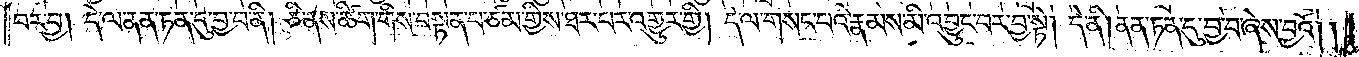བར་བྱ། དེ་ལ་ནན་ཏན་དུ་བྱ་བ་ནི། ཅི་ནས་ཚིག་གིས་བསྟན་པ་ཙམ་གྱིས་ཐར་པར་འགྱུར་གྱི། དེ་ལ་གསང་བའི་རྣམས་མི་འབྱུང་བར་བྱ་སྟེ། དེ་ནི། ནན་ཏན་དུ་བྱ་བ་ཞེས་བྱའོ། །
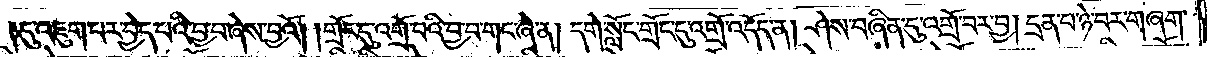དུ་འཇུག་པར་བྱེད་པའི་བྱ་བ་ཞེས་བྱའོ། །གྲོང་དུ་འགྲོ་བའི་བྱ་བ་གང་ཞེ་ན། དགེ་སློང་གྲོང་དུ་འགྲོ་འདོད་ན། ཤེས་བཞིན་དུ་འགྲོ་བར་བྱ། དྲན་པ་ཉེ་བར་གཞག་
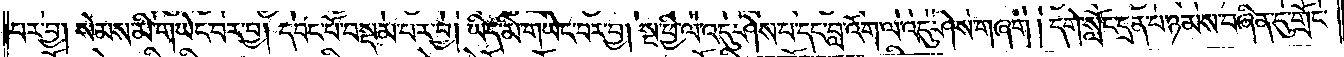པར་བྱ། སེམས་མི་གཡེང་བར་བྱ། དབང་པོ་བསྡམ་པར་བྱ། ཡིད་མི་གཡེང་བར་བྱ། སྔ་ཕྱི་ལ་འདུ་ཤེས་པ་དང་བླ་འོག་ལ་འདུ་ཤེས་གཞག །དགེ་སློང་དྲན་པ་ཉམས་བཞིན་དུ་གྲོང་
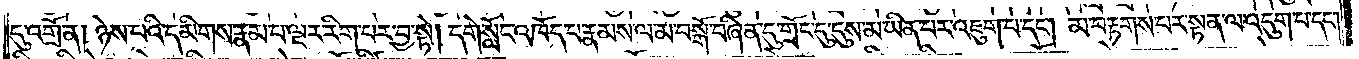དུ་འགྲོ་ན། ཉེས་པའི་དམིགས་རྣམ་པ་ལྔར་རིག་པར་བྱ་སྟེ། དགེ་སློང་འཁོད་པ་རྣམས་ལ་མ་བསྒོ་བཞིན་དུ་གྲོང་དུ་དུས་མ་ཡིན་པར་འཇུག་པ་དང༌། མ་བརྟགས་པར་སྟན་ལ་འདུག་པ་དང༌།
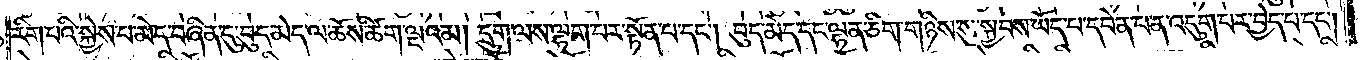རིག་པའི་སྐྱེས་པ་མེད་བཞིན་དུ་བུད་མེད་ལ་ཆོས་ཚིག་ལྔའམ། དྲུག་ལས་ལྷག་པར་སྟོན་པ་དང༌། བུད་མེད་དང་ལྷན་ཅིག་གཉིས་སུ་སྐྱབས་ཡོད་པ་དབེན་པ་ན་འདུག་པར་བྱེད་པ་དང༌།
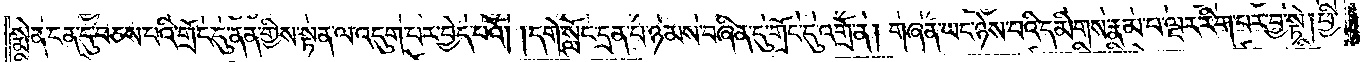སྨེན་ངན་དུ་བཅས་པའི་གྲོང་དུ་ནན་གྱིས་སྟན་ལ་འདུག་པར་བྱེད་པའོ། །དགེ་སློང་དྲན་པ་ཉམས་བཞིན་དུ་གྲོང་དུ་འགྲོ་ན། གཞན་ཡང་ཉེས་པའི་དམིགས་རྣམ་པ་ལྔར་རིག་པར་བྱ་སྟེ། ཕྱི་
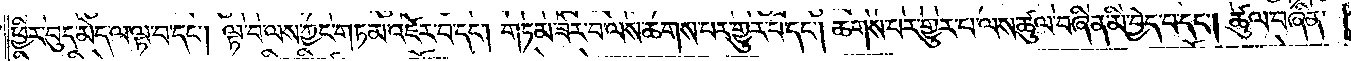ཕྱིར་བུད་མེད་ལ་ལྟ་བ་དང༌། ལྟ་བ་ལས་ཀྱང་གཏམ་འཛེར་བ་དང༌། གཏམ་ཟེར་བ་ལས་ཆགས་པར་གྱུར་པ་དང༌། ཆགས་པར་གྱུར་པ་ལས་ཚུལ་བཞིན་མི་བྱེད་པ་དང༌། ཚུལ་བཞིན་
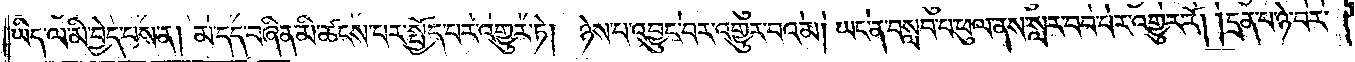ཡིད་ལ་མི་བྱེད་པས་ན། མ་དད་བཞིན་མི་ཚངས་པར་སྤྱོད་པར་འགྱུར་ཏེ། ཉེས་པ་འབྱུང་བར་འགྱུར་བའམ། ཡང་ན་བསླབ་པ་ཕུལ་ནས་སླར་བབ་པར་འགྱུར་རོ། །དྲན་པ་ཉེ་བར་
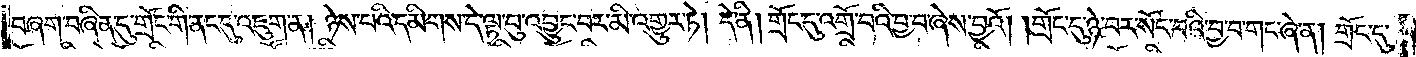བཞག་བཞིན་དུ་གྲོང་གི་ནང་དུ་འཇུག་ན། ཉེས་པའི་དམིགས་དེ་ལྟ་བུ་འབྱུང་བར་མི་འགྱུར་ཏེ། དེ་ནི། གྲོང་དུ་འགྲོ་བའི་བྱ་བ་ཞེས་བྱའོ། །གྲོང་དུ་ཉེ་བར་སོང་བའི་བྱ་བ་གང་ཞེ་ན། གྲོང་དུ་
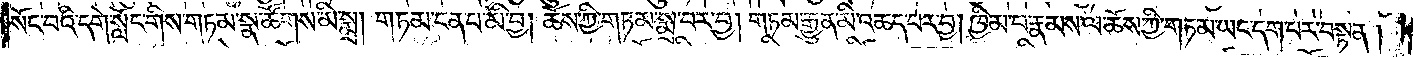སོང་བའི་དགེ་སློང་གིས་གཏམ་སྣ་ཚོགས་མི་སྨྲ། གཏམ་ངན་པ་མི་བྱ། ཆོས་ཀྱི་གཏམ་སྨྲ་བར་བྱ། གཏམ་རྒྱུན་མི་འཆད་པར་བྱ། ཁྱིམ་པ་རྣམས་ལ་ཆོས་ཀྱི་གཏམ་ཡང་དག་པར་བསྟན་
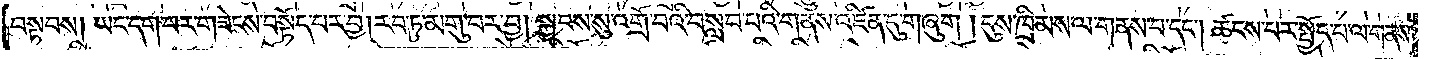བསྟབས། ཡང་དག་པར་གཟེངས་བསྟོད་པར་བྱ། རབ་ཏུ་མགུ་བར་བྱ། སྐྱབས་སུ་འགྲོ་བའི་བསླབ་པའི་གནས་འཛིན་དུ་གཞུག །དུས་ཁྲིམས་ལ་གནས་པ་དང༌། ཚངས་པར་སྤྱོད་པ་ལ་གནས་
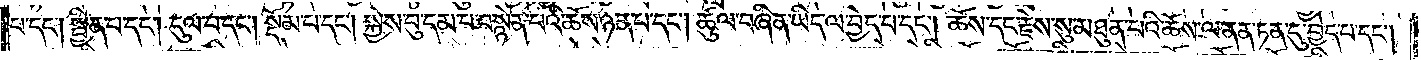པ་དང༌། སྦྱིན་པ་དང༌། དུལ་བ་དང༌། སྡོམ་པ་དང༌། སྐྱེས་བུ་དམ་པ་བསྙེན་པའི་ཆོས་ཉན་པ་དང༌། ཚུལ་བཞིན་ཡིད་ལ་བྱེད་པ་དང༌། ཆོས་དང་རྗེས་སུ་མཐུན་པའི་ཆོས་ལ་ནན་ཏན་དུ་བྱེད་པ་དང༌།
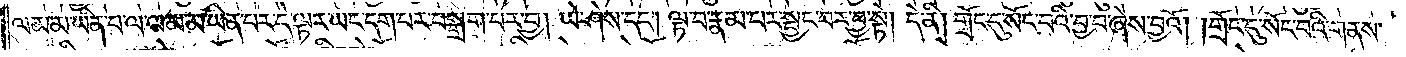ལམ་མ་ཡིན་པ་ལ་ལམ་མ་ཡིན་པར་དེ་ལྟར་ཡང་དག་པར་བསྒྲག་པར་བྱ། ཡེ་ཤེས་དང༌། ལྟ་བ་རྣམ་པར་སྦྱང་བར་བྱ་སྟེ། དེ་ནི། གྲོང་དུ་སོང་བའི་བྱ་བ་ཞེས་བྱའོ། །གྲོང་དུ་སོང་བའི་གནས་
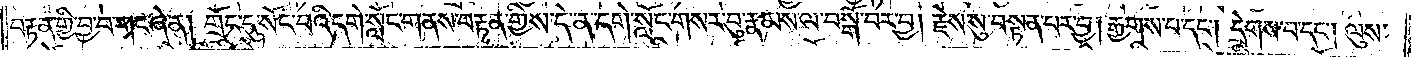བརྟན་གྱི་བྱ་བ་གང་ཞེ་ན། གྲོང་དུ་སོང་བའི་དགེ་སློང་གནས་བརྟན་གྱིས་དེ་ན་དགེ་སློང་གསར་བུ་རྣམས་ལ་བསྒོ་བར་བྱ། རྗེས་སུ་བསྟན་པར་བྱ། རྒྱགས་པ་དང༌། དྲེགས་པ་དང༌། ལུས་
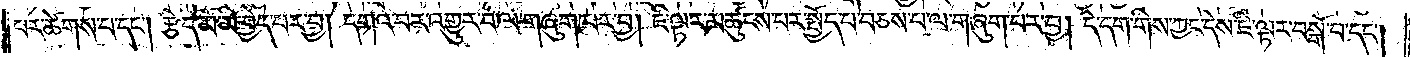པར་ཚེགས་པ་དང༌། རྩེད་མོ་མི་བྱེད་པར་བྱ། དགའ་བར་འགྱུར་བ་ལ་གཞུག་པར་བྱ། ཇི་ལྟར་མཚུངས་པར་སྤྱོད་པ་བཅས་པ་ལ་གཞུག་པར་བྱ། དེ་དག་གིས་ཀྱང་དེས་ཇི་ལྟར་བསྒོ་བ་དང༌།
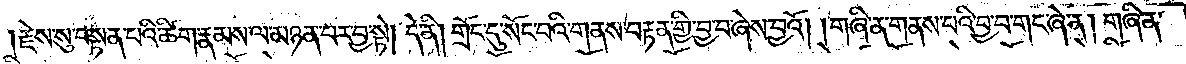རྗེས་སུ་བསྟན་པའི་ཚིག་རྣམས་ལ་མཉན་པར་བྱ་སྟེ། དེ་ནི། གྲོང་དུ་སོང་བའི་གནས་བརྟན་གྱི་བྱ་བ་ཞེས་བྱའོ། །གཞི་ན་གནས་པའི་བྱ་བ་གང་ཞེ་ན། གཞི་ན་
